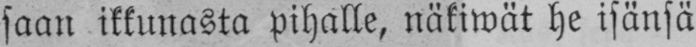saan ikkunasta pihalle, näkiwät he isänsä
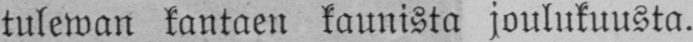tulewan kantaen kaunista joulukuusta.
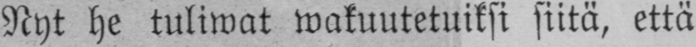Nyt he tuliwat wakuutetuiksi siitä, että
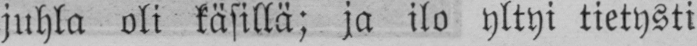juhla oli käsillä; ja ilo yltyi tietysti
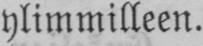ylimmilleen.
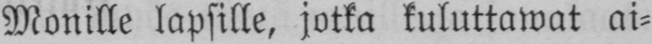Monille lapsille, jotka kuluttawat ai-
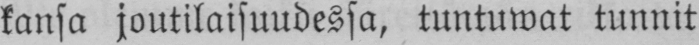kansa joutilaisuudessa, tuntuwat tunnit
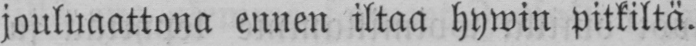jouluaattona ennen iltaa hywin pitkiltä.
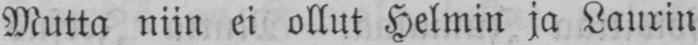Mutta niin ei ollut Helmin ja Laurin
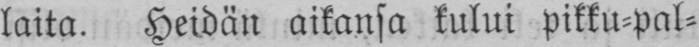laita. Heidän aikansa kului pikku-pal-
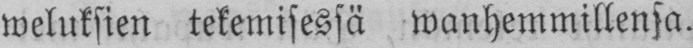weluksien tekemisessä wanhemmillensa.
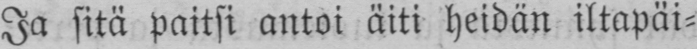Ja sitä paitsi antoi äiti heidän iltapäi-
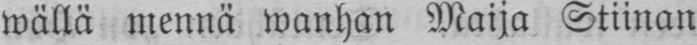wällä mennä wanhan Maija Stiinan
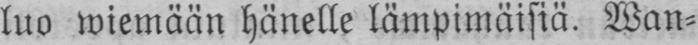luo wiemään hänelle lämpimäisiä. Wan-
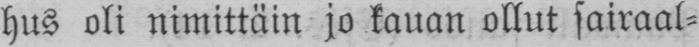hus oli nimittäin jo kauan ollut sairaal-
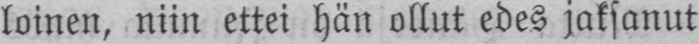loinen, niin ettei hän ollut edes jaksanut
